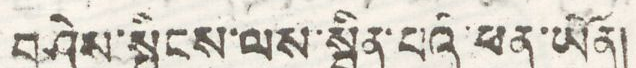བཤེས་སྤྲིངས་ལས་སྦྱིན་པའི ཕན་ཡོན།
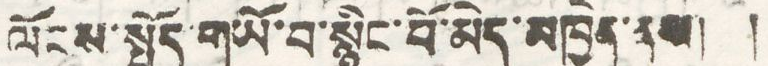ལོངས་སྤྱོད་གཡོ་བ་སྙིང་པོ་མེད་མཁྱེན་ནམ། །
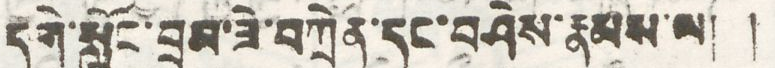དགེ་སློང་བྲམ་ཟེ་བཀྲེན་དང་བཤེས་རྣམས་ལ། །
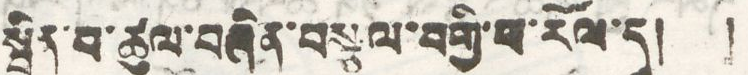སྦྱིན་བ་ཚུལ་བཞིན་བསྩལ་བགྱི་ཕ་རོལ་དུ། །
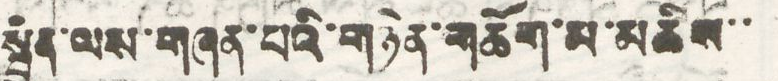སྦྱིན་ལས་གཞན་པའི་གཉེན་གཆོག་མ་མཆིས་་
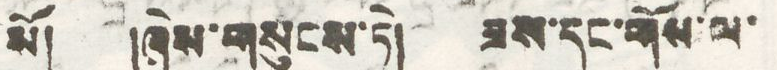སོ། །ཞེས་གསུངས་ཏེ། ཟས་དང་གོས་ལ་
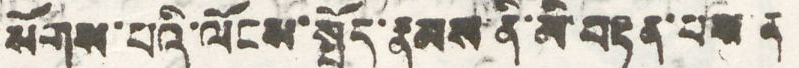སོགས་པའི་ལོངས་སྤྱོད་རྣམས་ནི་མི་བརྟན་པས ན
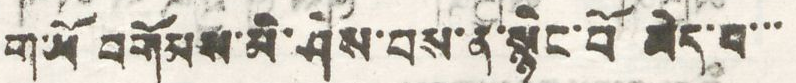གཡོ བགོམས་མི་ཤེས་པས་ན་སྙིང་པོ མེད་པ་་་
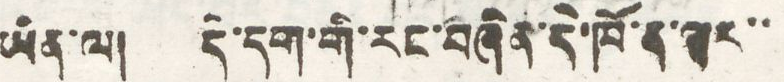ཡིན་ལ། དེ་དག་གི་རང་བཞིན་དེ་ཁོ་ན་ལྟར་་
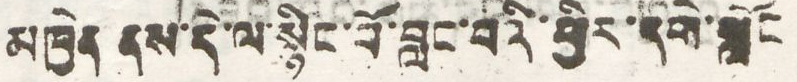མཁྱེན ནས་དེ་ལ་སྙིང་པོ་བླང་བའི་ཕྱིར་དགེ་སློང
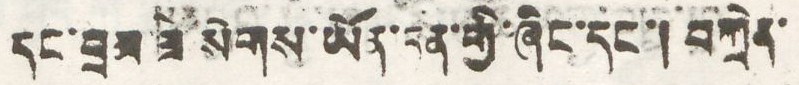དང་བྲམ་ཟེ་སོགས་ཡོད་ངན་གྱི་ཞིང་དང་། བཀྲིམ་
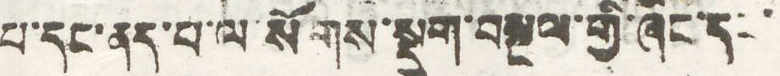པ་དང་ནད་པ་ལ་སོགས་སྡུག་བསྔལ་གྱི་ཞིང་དང་
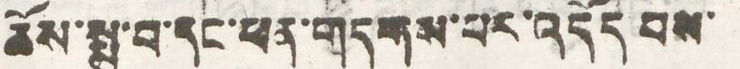ཆོས་སྨྲ་བ་དང་ཕན་གདགས་པར་འདོད་པས་
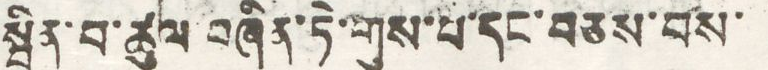སྦྱིན་བ་ཚུལ་བཞིན་ཏེ་གུས་པ་དང་བཅས་བས་
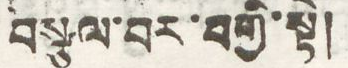བསྩལ་བར་བགྱི་སྟེ།
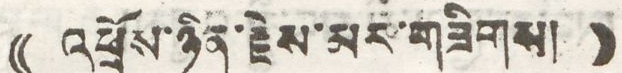(( འཕྲོས་ཉིན་རྗེས་མར་གཟིགས། ))
